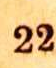22
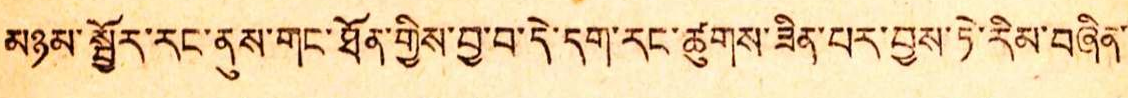མཉམ་སྦྱོར་རང་ནུས་གང་ཐོན་གྱིས་བྱ་བ་དེ་དག་རང་ཚུགས་ཟིན་པར་བྱས་ཏེ་རིམ་བཞིན་
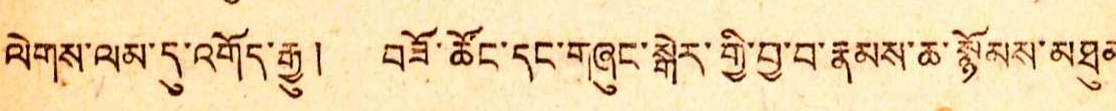ལེགས་ལམ་དུ་འགོད་རྒྱུ ། བཟོ་ཚོང་དང་གཞུང་སྒེར་གྱི་བྱ་བ་རྣམས་ཆ་སྙོམས་མཐུན་
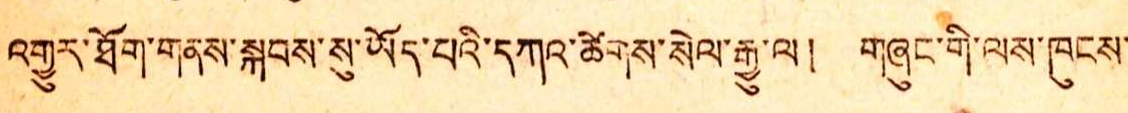འགྱུར་ཐོག་གནས་སྐབས་སུ་ཡོད་པའི་དཀའ་ཚེགས་སེལ་རྒྱུ་ལ ། གཞུང་གི་ལས་ཁུངས་
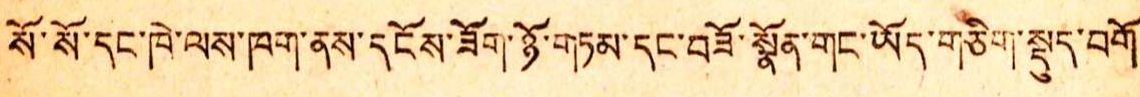སོ་སོ་དང་ཁེ་ལས་ཁག་ནས་དངོས་ཟོག་ཉོ་གཏམ་དང་བཟོ་སྣོན་གང་ཡོད་གཅིག་སྡུད་བགོ
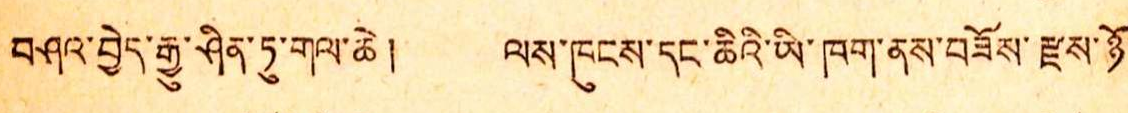བཤའ་བྱེད་རྒྱུ་ཤིན་ཏུ་གལ་ཆེ ། ལས་ཁུངས་དང་ཆིའི་ཡི་ཁག་ནས་བཟོས་རྫས་ཉོ་
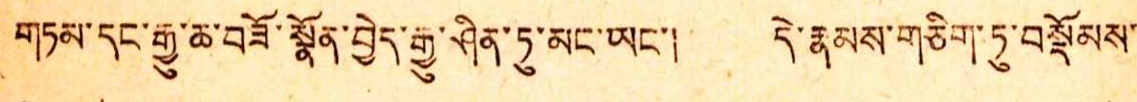གཏམ་དང་རྒྱུ་ཆ་བཟོ་སྣོན་བྱེད་རྒྱུ་ཤིན་ཏུ་མང་ཡང་། དེ་རྣམས་གཅིག་ཏུ་བསྡོམས་
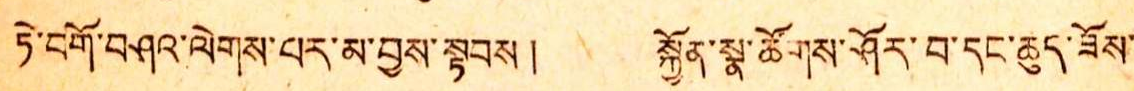ཏེ་བགོ་བཤའ་ལེགས་པར་མ་བྱས་སྟབས ། སྐྱོན་སྣ་ཚོགས་ཤོར་བ་དང་ཆུད་ཟོས་
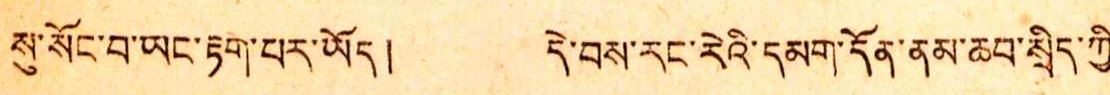སུ་སོང་བ་ཡང་རྟག་པར་ཡོད། དེ་བས་རང་རེའི་དམག་དོན་ནམ་ཆབ་སྲིད་ཀྱི་་
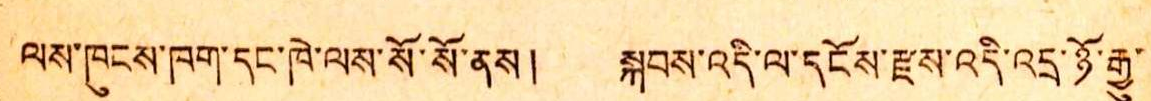ལས་ཁུངས་ཁག་དང་ཁེ་ལས་སོ་སོ་ནས ། སྐབས་འདི་ལ་དངོས་རྫས་འདི་འདྲ་ཉོ་རྒྱུ་
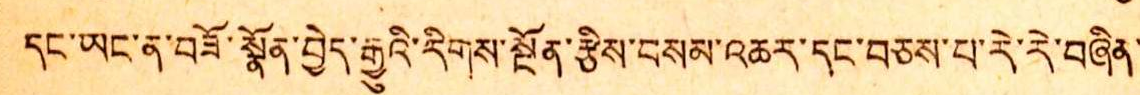དང་ཡང་ན་བཟོ་སྣོན་བྱེད་རྒྱུའི་རིགས་སྔོན་རྩིས་བསམ་འཆར་དང་བཅས་པ་རེ་རེ་བཞིན་
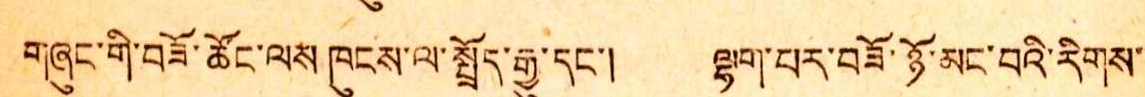གཞུང་གི་བཟོ་ཚོང་ལས་ཁུངས་ལ་སྤྲོད་རྒྱུ་དང་། ལྷག་པར་བཟོ་ཉོ་མང་བའི་རིགས་
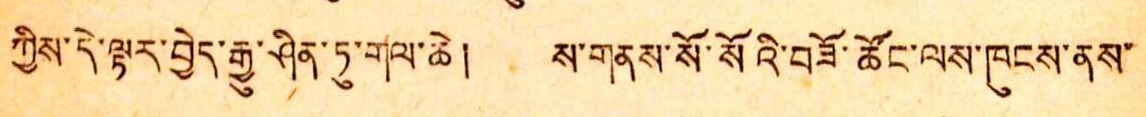ཀྱིས་དེ་ལྟར་བྱེད་རྒྱུ་ཤིན་ཏུ་གལ་ཆེ། ས་གནས་སོ་སོའི་བཟོ་ཚོང་ལས་ཁུངས་ནས་
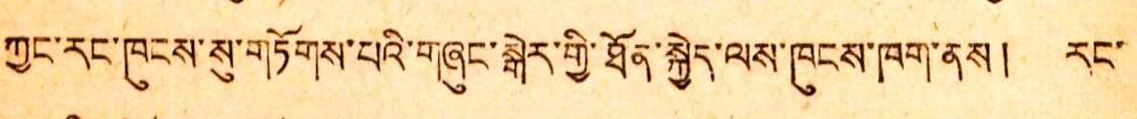ཀྱང་རང་ཁུང་སུ་གཏོགས་པའི་གཞུང་སྒེར་གྱི་ཐོན་སྐྱེད་ལས་ཁུངས་ཁག་ནས ། རང་
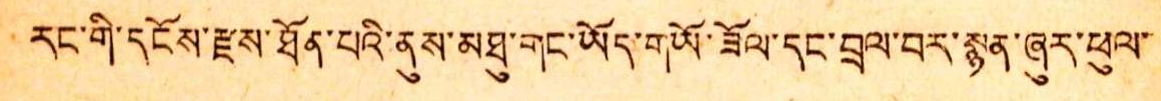རང་གི་དངོས་རྫས་ཐོན་པའི་ནུས་མཐུ་གང་ཡོད་གཡོ་ཟོལ་དང་བྲལ་བར་སྙན་ཞུར་ཕུལ་
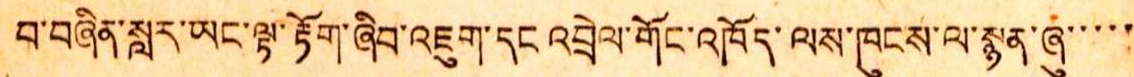བ་བཞིན་སླར་ཡང་ལྟ་རྟོག་ཞིབ་འཇུག་དང འབྲེལ་གོང་འཁོད་ལས་ཁུངས་ལ་སྙན་ཞུ་་་་་
